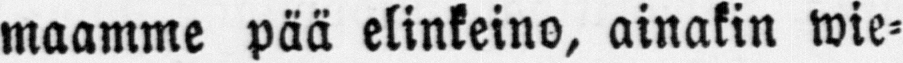maamme pää elinkeino, ainakin wie-
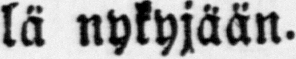lä nykyjään.
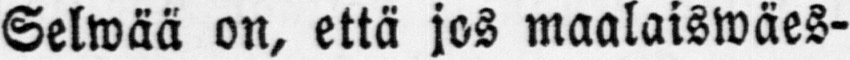Selwää on, että jos maalaiswäes-
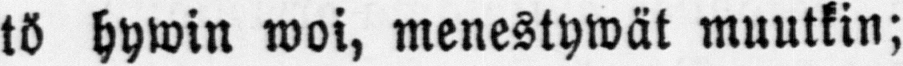tö hywin woi, menestywät muutkin;
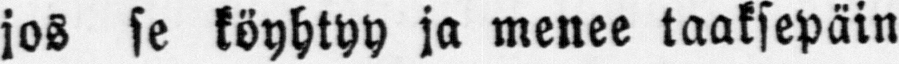jos se köyhtyy ja menee taaksepäin
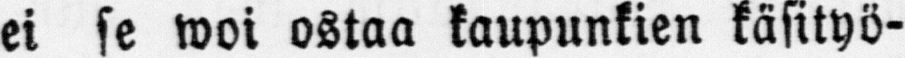ei se woi ostaa kaupunkien käsityö-
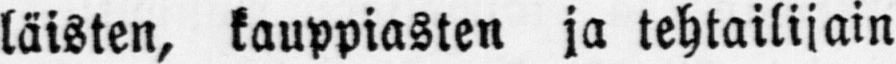läisten, kauppiasten ja tehtailijain
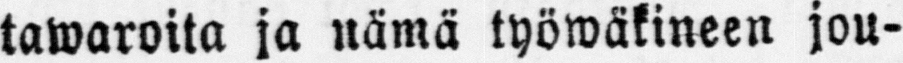tawaroita ja nämä työwäkineen jou-
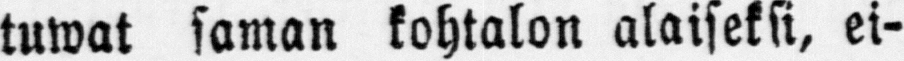tuwat saman kohtalon alaiseksi, ei-
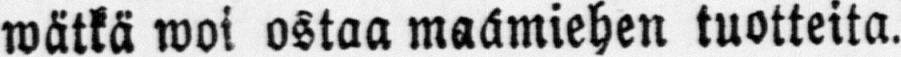wätkä woi ostaa maamiehen tuotteita.
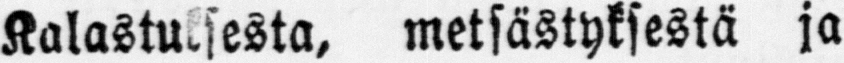Kalastuksesta, metsästyksestä ja
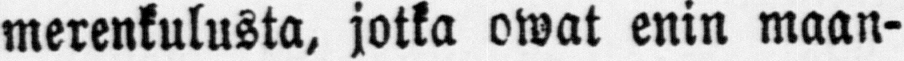merenkulusta, jotka owat enin maan-
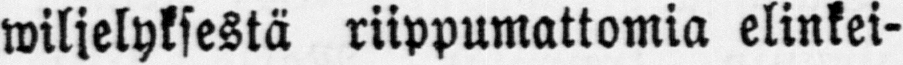wiljelyksestä riippumattomia elinkei-
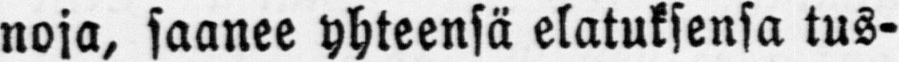noja, saanee yhteensä elatuksensa tus-
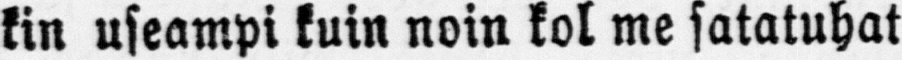kin useampi kuin noin kol me satatuhat
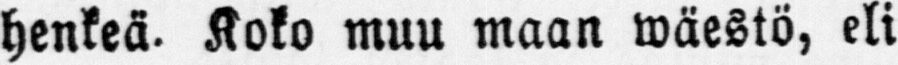henkeä. Koko muu maan wäestö, eli
